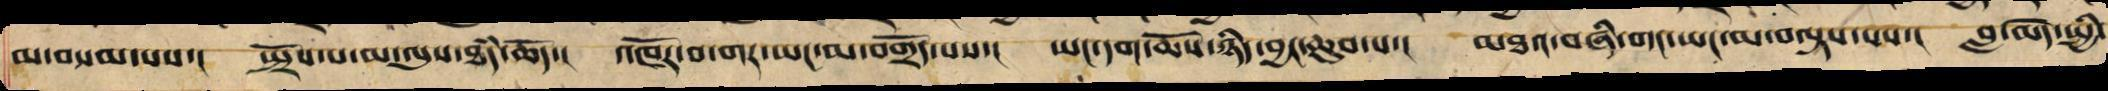མ་བསམ་པས་། སྤྲོས་པ་མ་ལུས་ཐཾད་ཆོད་། འཁོར་བ་གར་ཡང་མ་བགྲོད་པས་། ཡང་དག་ཆོས་ཉིད་བྱང་ཆུབ་པ་། མཐའ་བཞི་གང་ཡང་མ་བལྟས་པས་། བླ་མེད་སྤྱི་
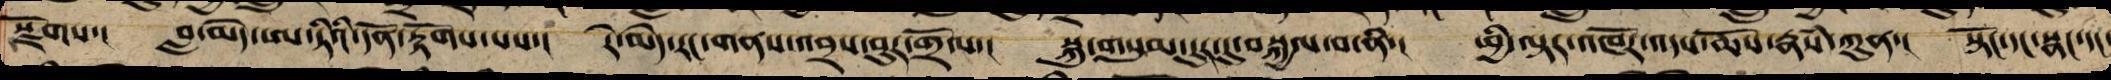རྫོགས་། བླ་མེད་ཨ་ཏིའི་དོན་རྟོགས་པས་། རེ་མེད་རང་གནས་འབྲས་བུར་གྲོལ་། སྐུ་གསུམ་དུར་དུ་བསྐྱལ་བ་ནི་། ཕྱི་ལྟར་འཁོར་འདས་ཆོས་རྣཾས་ཀུན་། སྟོང་དང་སྣང་དང་
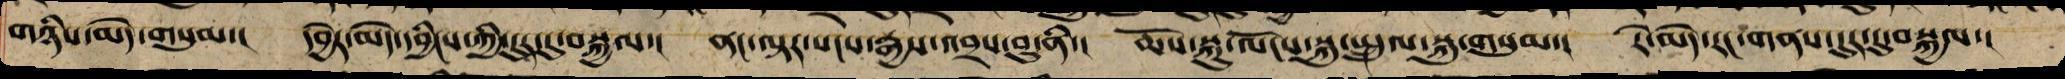གཉིས་མེད་གསུམ་། དབྱེར་མེད་དབྱིངས་ཀྱི་དུར་དུ་བསྐྱལ་། ནང་ལྟར་སངས་རྒྱས་འབྲས་བུ་ནི་། ཆོས་སྐུ་ལོངས་སྐུ་སྤྲུལ་སྐུ་གསུམ་། རེ་མེད་རང་གནས་དུར་དུ་བསྐྱལ་།
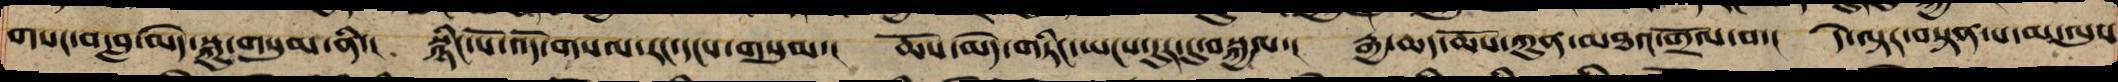གསང་བ་བླ་མེད་སྐུ་གསུམ་ནི་། སྙིང་པོ་འོད་གསལ་རང་དངས་གསུམ་། ཆོས་མེད་གཏིང་ཡངས་དུར་དུ་བསྐྱལ་། རྒྱ་ཆད་ཆོས་ཀུན་མཐའ་གྲོལ་བ་། དེ་ལྟར་བསྟན་པ་མ་ལུས
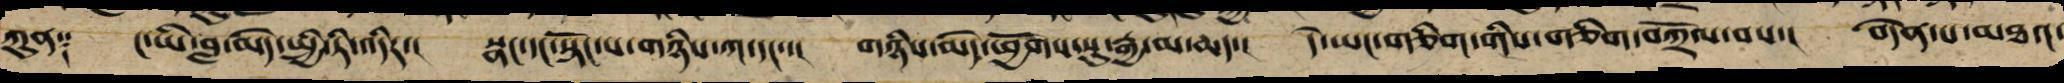ཀུན༑ ང་ཡི་བླ་མེད་སྤྱི་ཏི་འདིར་། སྣང་དང་སྟོང་པ་གཉིས་ཀ་དང་་། གཉིས་མེད་ཕྱོགས་སུ་རྒྱ་མ་ཆད་། དེ་ཡང་གཅིག་གིས་གཅིག་བཀྲོལ་བས་། བདེན་པ་མཐའ་
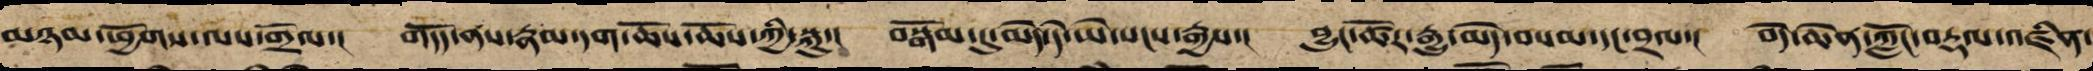མཉམ་ཕྱོགས་ལས་གྲོལ་། གདོད་ནས་རྣམ་དག་ཆོས་ཆོས་ཀྱི་སྐུ་། བསྒོམ་དུ་མེད་དེ་ཡེ་སངས་རྒྱས་། བྱུང་ཚོར་རྒྱུ་མེད་བསམ་དང་བྲལ་། བདེ་ཆེན་ཀློང་བརྡལ་འཛིན་
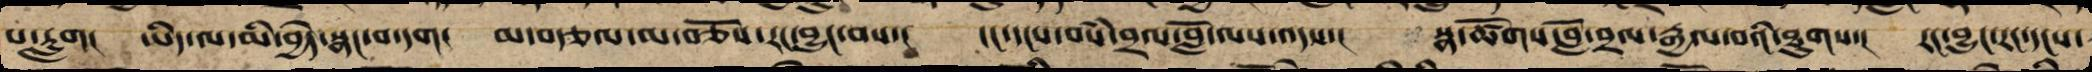པ་རླག། ཡིད་ལ་མི་བྱེད་སྣང་བ་དག། མ་བརྩལ་མ་བཅོས་རང་བྱུང་བས་། ངང་དངས་བསཾ་བྲལ་བློ་ལས་འདས་། སྣ་ཚོགས་བློ་བྲལ་རྒྱལ་བའི་ཐུགས་། རང་བྱུང་རང་དངས་
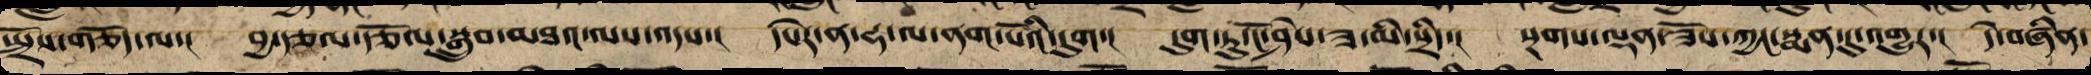སྤྲོས་གཅོད་ལ་། བྱ་རྩལ་རྩོལ་སྒྲུབ་མཐའ་ལས་འདས་། དཔེར་ན་ཧ་ལ་ནག་པོའི་དུག་། དུག་ཏུ་ངོ་ཤེས་ཟ་མི་སྲིད་། སྔགས་ལྡན་ཟོས་ཀྱང་སྨན་དུ་འགྱུར་། དེ་བཞིན་
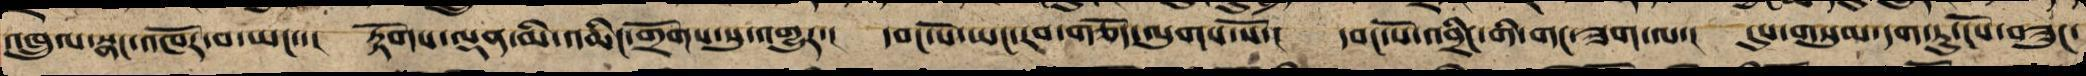འཁྲུལ་སྣང་འཁོར་བ་ཡང་་། རྟོགས་ལྡན་མི་འཆིང་གྲོགས་སུ་འགྱུར་། དབང་པོ་ཡང་རབ་གཅོད་ལུགས་སོ་། དབང་པོ་འབྲིང་གི་གང་ཟག་ལ་། དུས་གསུམ་དག་ཏུ་ངོས་བཟུང་
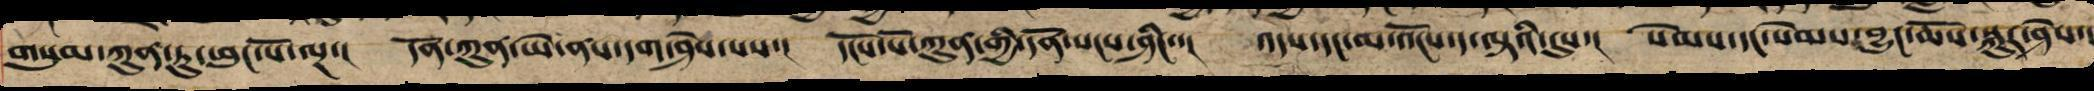གསུམ་ཀུན་ཏུ་ཕུང་པོ་ལྔ་། དོན་ཀུན་ཡེ་ནས་དག་ཤེས་པས་། དངོས་པོ་ཀུན་གྱི་དོན་སངས་ཤིང་་། འདས་དང་མ་འོངས་ད་ལྟའི་དུས་། སེམས་དང་སེམས་བྱུང་ཆོས་སྐུར་ཤེས་།
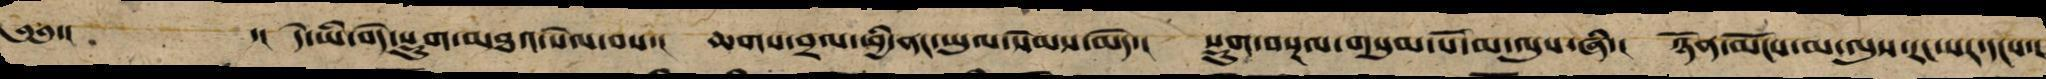༄༅་། ་། དེ་ཡི་བདེ་སྡུག་མཐའ་སེལ་བས་། ཆགས་བྲལ་ཕྱི་ནང་ཡུལ་སེམས་མེད་། སྡུག་བསྔལ་གསུམ་པོ་མ་ལུས་ཞི་། ཉོན་མོངས་མ་ལུས་རང་སར་དངས་།
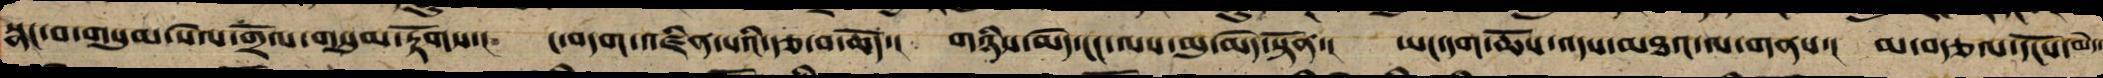སྣང་བ་གསུམ་སེལ་གྲོལ་གསུམ་རྟོགས་། ང་བདག་འཛིན་པའི་རྩ་བ་ཆོད་། གཉིས་མེད་ངང་ལས་མུ་མེད་སྟོན་། ཡང་དག་ཆོས་འདས་མཐའ་ལ་གནས་། མ་བརྩལ་དངོས་མེད་
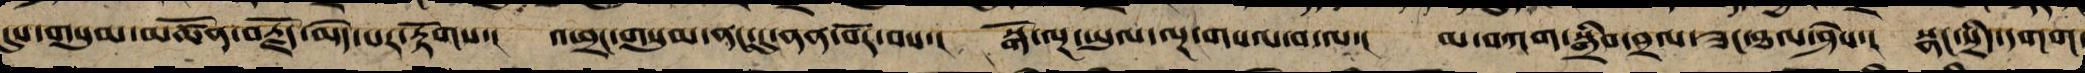དུས་གསུམ་མཚོན་བརྗོད་མེད་པར་རྟོགས་། འཕྲང་གསུམ་ནང་དུ་ནན་བོར་བས་། སྒོ་ལྔ་ཡུལ་ལྔ་གསལ་བ་ལ་། མ་བཀག་སྒྲིབ་བྲལ་ཟང་ཐལ་ཤེས་། སྣང་སྲིད་དགག་
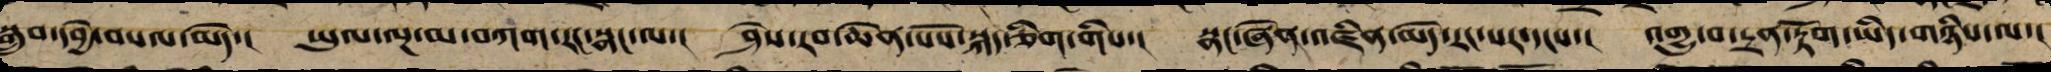སྒྲུབ་དབྱེ་བསལ་མེད་། ཡུལ་ལྔ་མ་བཀག་རང་སྣང་ལ་། ཤེས་རབ་ཆེན་པོས་སྐད་ཅིག་གིས་། སྣང་ཞེན་འཛིན་མེད་རང་སར་དངས་། འགྱུ་བ་དྲན་རྟོག་ཡིད་གཉིས་ལ་།
